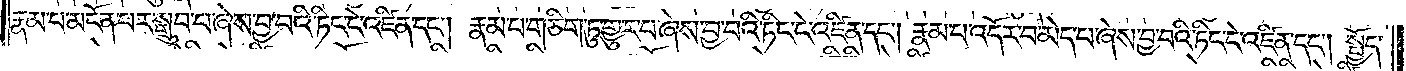རྣམ་པ་མངོན་པར་སྒྲུབ་པ་ཞེས་བྱ་བའི་ཏིང་ངེ་འཛིན་དང༌། རྣམ་པ་གཅིག་ཏུ་གྱུར་པ་ཞེས་བྱ་བའི་ཏིང་ངེ་འཛིན་དང༌། རྣམ་པ་འདོར་བ་མེད་པ་ཞེས་བྱ་བའི་ཏིང་ངེ་འཛིན་དང༌། སྤྱོད་
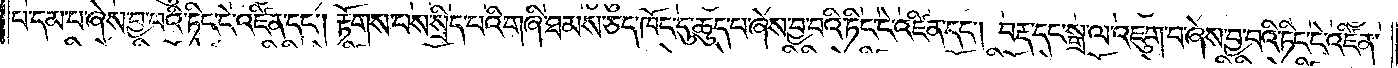པ་དམ་པ་ཞེས་བྱ་བའི་ཏིང་ངེ་འཛིན་དང༌། རྟོགས་པས་སྲིད་པའི་གཞི་ཐམས་ཅད་ཁོང་དུ་ཆུད་པ་ཞེས་བྱ་བའི་ཏིང་ངེ་འཛིན་དང༌། བརྡ་དང་སྒྲ་ལ་འཇུག་པ་ཞེས་བྱ་བའི་ཏིང་ངེ་འཛིན་
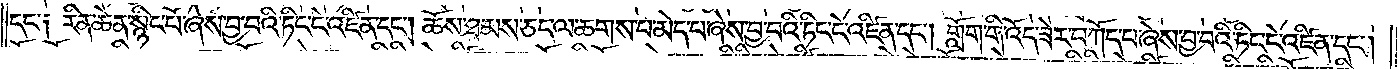དང༌། རིན་ཆེན་སྙིང་པོ་ཞེས་བྱ་བའི་ཏིང་ངེ་འཛིན་དང༌། ཆོས་ཐམས་ཅད་ལ་ཆགས་པ་མེད་པ་ཞེས་བྱ་བའི་ཏིང་ངེ་འཛིན་དང༌། གློག་གི་འོད་ཟེར་བཀོད་པ་ཞེས་བྱ་བའི་ཏིང་ངེ་འཛིན་དང༌།
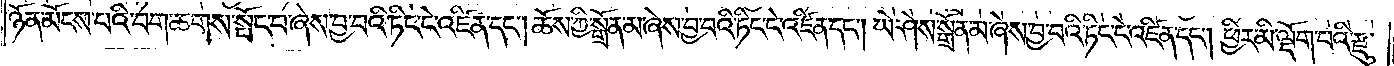ཉོན་མོངས་པའི་བག་ཆགས་སྤོང་བ་ཞེས་བྱ་བའི་ཏིང་ངེ་འཛིན་དང༌། ཆོས་ཀྱི་སྒྲོན་མ་ཞེས་བྱ་བའི་ཏིང་ངེ་འཛིན་དང༌། ཡེ་ཤེས་སྒྲོན་མ་ཞེས་བྱ་བའི་ཏིང་ངེ་འཛིན་དང༌། ཕྱིར་མི་ལྡོག་པའི་རྫུ་
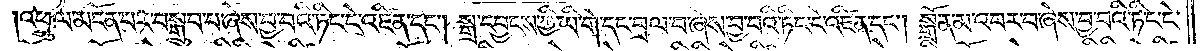འཕྲུལ་མངོན་པར་བསྒྲུབ་པ་ཞེས་བྱ་བའི་ཏིང་ངེ་འཛིན་དང༌། སྒྲ་དབྱངས་ཀྱི་ཡི་གེ་དང་བྲལ་བ་ཞེས་བྱ་བའི་ཏིང་ངེ་འཛིན་དང༌། སྒྲོན་མ་འབར་བ་ཞེས་བྱ་བའི་ཏིང་ངེ་
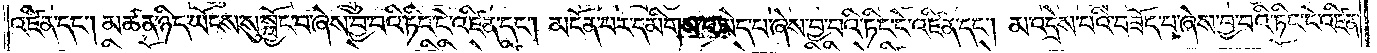འཛིན་དང༌། མཚན་ཉིད་ཡོངས་སུ་སྦྱོང་བ་ཞེས་བྱ་བའི་ཏིང་ངེ་འཛིན་དང༌། མངོན་པར་དམིགས་པ་མེད་པ་ཞེས་བྱ་བའི་ཏིང་ངེ་འཛིན་དང༌། མ་འདྲེས་པའི་བཟོད་པ་ཞེས་བྱ་བའི་ཏིང་ངེ་འཛིན་
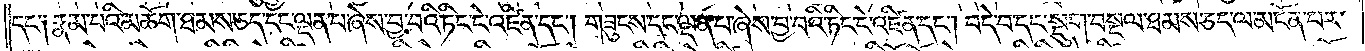དང༌། རྣམ་པའི་མཆོག་ཐམས་ཅད་དང་ལྡན་པ་ཞེས་བྱ་བའི་ཏིང་ངེ་འཛིན་དང༌། གཟུགས་དང་ལྡན་པ་ཞེས་བྱ་བའི་ཏིང་ངེ་འཛིན་དང༌། བདེ་བ་དང་སྡུག་བསྔལ་ཐམས་ཅད་ལ་མངོན་པར་
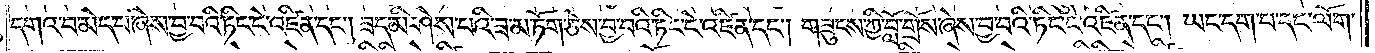དགའ་བ་མེད་པ་ཞེས་བྱ་བའི་ཏིང་ངེ་འཛིན་དང༌། ཟད་མི་ཤེས་པའི་ཟ་མ་ཏོག་ཅེས་བྱ་བའི་ཏིང་ངེ་འཛིན་དང༌། གཟུངས་ཀྱི་བློ་གྲོས་ཞེས་བྱ་བའི་ཏིང་ངེ་འཛིན་དང༌། ཡང་དག་པ་དང་ལོག་
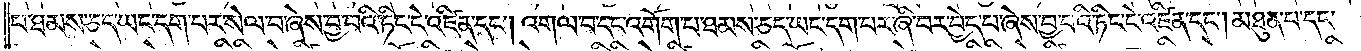པ་ཐམས་ཅད་ཡང་དག་པར་སེལ་བ་ཞེས་བྱ་བའི་ཏིང་ངེ་འཛིན་དང༌། འགལ་བ་དང་འགོག་པ་ཐམས་ཅད་ཡང་དག་པར་ཞི་བར་བྱེད་པ་ཞེས་བྱ་བའི་ཏིང་ངེ་འཛིན་དང༌། མཐུན་པ་དང་
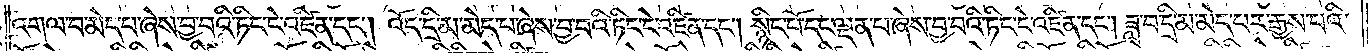འགལ་བ་མེད་པ་ཞེས་བྱ་བའི་ཏིང་ངེ་འཛིན་དང༌། འོད་དྲི་མ་མེད་པ་ཞེས་བྱ་བའི་ཏིང་ངེ་འཛིན་དང༌། སྙིང་པོ་དང་ལྡན་པ་ཞེས་བྱ་བའི་ཏིང་ངེ་འཛིན་དང༌། ཟླ་བ་དྲི་མ་མེད་པར་རྒྱས་པའི་
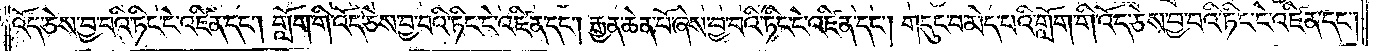འོད་ཅེས་བྱ་བའི་ཏིང་ངེ་འཛིན་དང༌། གློག་གི་འོད་ཅེས་བྱ་བའི་ཏིང་ངེ་འཛིན་དང༌། རྒྱན་ཆེན་པོ་ཞེས་བྱ་བའི་ཏིང་ངེ་འཛིན་དང༌། གདུང་བ་མེད་པའི་གློག་གི་འོད་ཅེས་བྱ་བའི་ཏིང་ངེ་འཛིན་དང༌།
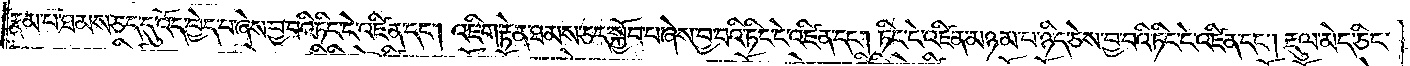རྣམ་པ་ཐམས་ཅད་དུ་འོད་བྱེད་པ་ཞེས་བྱ་བའི་ཏིང་ངེ་འཛིན་དང༌། འཇིག་རྟེན་ཐམས་ཅད་སྐྱོབ་པ་ཞེས་བྱ་བའི་ཏིང་ངེ་འཛིན་དང༌། ཏིང་ངེ་འཛིན་མཉམ་པ་ཉིད་ཅེས་བྱ་བའི་ཏིང་ངེ་འཛིན་དང༌། རྡུལ་མེད་ཅིང་
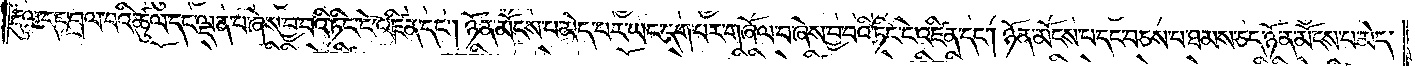རྡུལ་དང་བྲལ་བའི་ཚུལ་དང་ལྡན་པ་ཞེས་བྱ་བའི་ཏིང་ངེ་འཛིན་དང༌། ཉོན་མོངས་པ་མེད་པར་ཡང་དག་པར་གཞོལ་བ་ཞེས་བྱ་བའི་ཏིང་ངེ་འཛིན་དང༌། ཉོན་མོངས་པ་དང་བཅས་པ་ཐམས་ཅད་ཉོན་མོངས་པ་མེད་
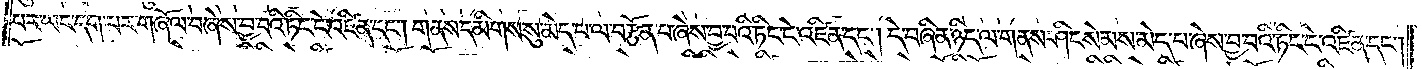པར་ཡང་དག་པར་གཞོལ་བ་ཞེས་བྱ་བའི་ཏིང་ངེ་འཛིན་དང༌། གནས་དམིགས་སུ་མེད་པ་ལ་བརྩོན་པ་ཞེས་བྱ་བའི་ཏིང་ངེ་འཛིན་དང༌། དེ་བཞིན་ཉིད་ལ་གནས་ཤིང་སེམས་མེད་པ་ཞེས་བྱ་བའི་ཏིང་ངེ་འཛིན་དང༌།
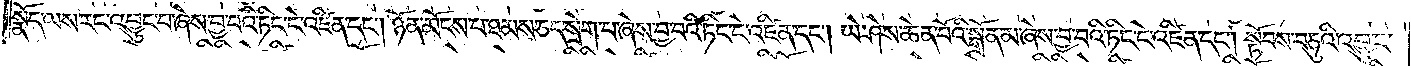སྣོད་ལས་རང་འབྱུང་བ་ཞེས་བྱ་བའི་ཏིང་ངེ་འཛིན་དང༌། ཉོན་མོངས་པ་ཐམས་ཅད་སྲེག་པ་ཞེས་བྱ་བའི་ཏིང་ངེ་འཛིན་དང༌། ཡེ་ཤེས་ཆེན་པོའི་སྒྲོན་མ་ཞེས་བྱ་བའི་ཏིང་ངེ་འཛིན་དང༌། སྟོབས་བཅུའི་འབྱུང་
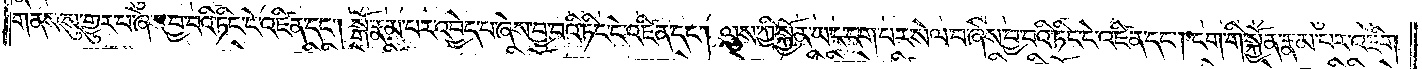གནས་སུ་གྱུར་པ་ཞེས་བྱ་བའི་ཏིང་ངེ་འཛིན་དང༌། སྒོ་རྣམ་པར་འབྱེད་པ་ཞེས་བྱ་བའི་ཏིང་ངེ་འཛིན་དང༌། ལུས་ཀྱི་སྐྱོན་ཡང་དག་པར་སེལ་བ་ཞེས་བྱ་བའི་ཏིང་ངེ་འཛིན་དང༌། ངག་གི་སྐྱོན་རྣམ་པར་འཇིག་
